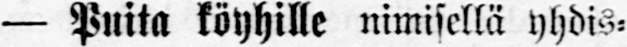— Puita köyhille nimisellä yhdis-
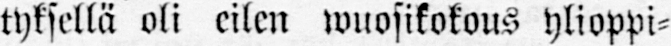tyksellä oli eilen wuosikokous ylioppi-
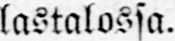lastalossa.
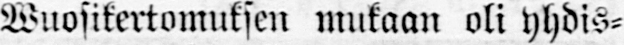Wuosikertomuksen mukaan oli yhdis-
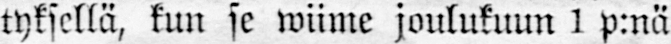tyksellä, kun se wiime joulukuun 1 p:nä
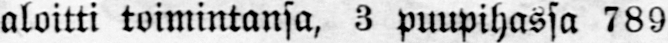aloitti toimintansa, 3 puupihassa 789
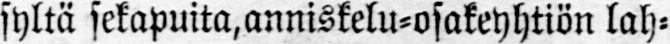syltä sekapuita,anniskelu-osakeyhtiön lah-
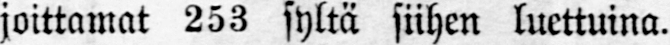joittamat 253 syltä siihen luettuina.
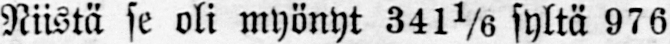Niistä se oli myönyt 341⅙ syltä 976
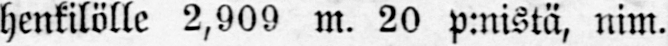henkilölle 2,909 m. 20 p:nistä, nim.
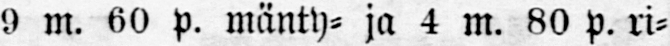9 m. 60 p. mänty- ja 4 m. 80 p. ri-
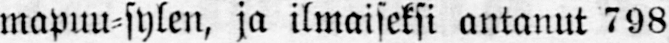mapuu-sylen, ja ilmaiseksi antanut 798
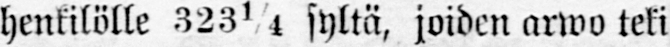henkilölle 323¼ syltä, joiden arwo teki
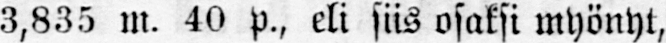3,835 m. 40 p., eli siis osaksi myönyt,
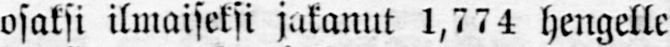osaksi ilmaiseksi jakanut 1,774 hengelle
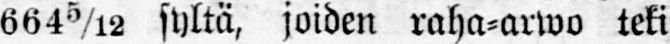6645/12 syltä, joiden raha-arwo teki
